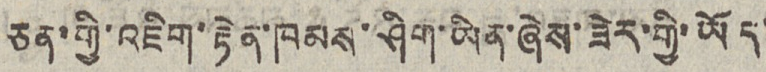ཅན་གྱི་འཇིག་རྟེན་ཁམས་ཤིག་ཡིན་ཞེས་ཟེར་གྱི་ཡོད་
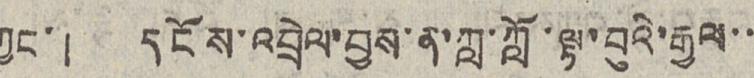ཀྱང་། དངོས་འབྲེལ་བྱས་ན་ཀླ་ཀློ་ལྟ་བུའི་རྒྱལ་་
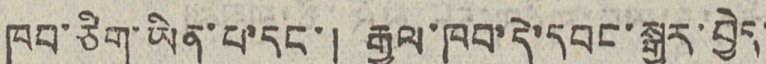ཁབ་ཅིག་ཡིན་པ་དང་། རྒྱལ་ཁབ་དེ་དབང་སྒྱུར་བྱེད་
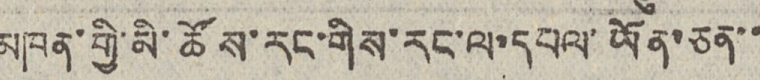མཁན་གྱི་མི་ཚོས་རང་གིས་རང་ལ་དཔལ་ཡོན་ཅན་་
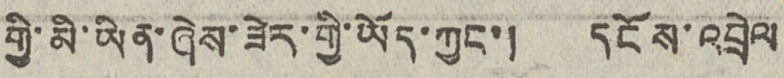གྱི་མི་ཡིན་ཞེས་ཟེར་གྱི་ཡོད་ཀྱང་། དངོས་འབྲེལ
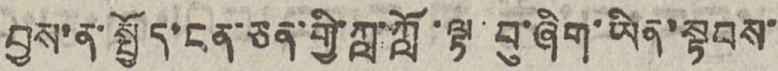བྱས་ན་སྤྱོད་ངན་ཅན་གྱི་ཀླ་ཀློ་ལྟ་བུ་ཞིག་ཡིན་སྟབས་
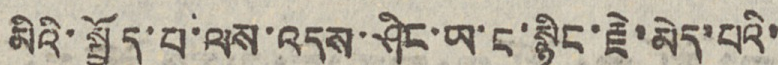མིའི་སྤྱོད་པ་ལས་འདས་ཤིང་ཡ་ང་སྙིང་རྗེ་མེད་པའི་
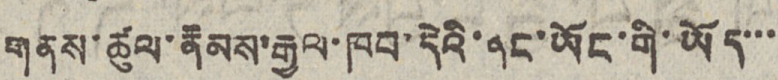གནས་ཚུལ་རྣམས་རྒྱལ་ཁབ་དེའི་ནང་ཡོང་གི་ཡོད་་་
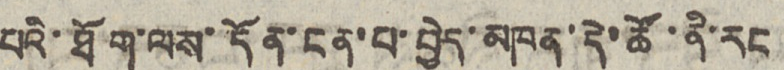པའི་ཐོག་ལས་དོན་ངན་པ་བྱེད་མཁན་དེ་ཚོ་ནི་རང
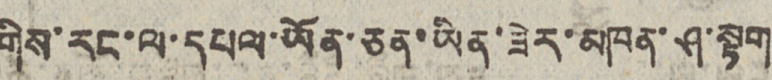གིས་རང་ལ་དཔལ་ཡོན་ཅན་ཡིན་ཟེར་མཁན་ཤ་སྟག
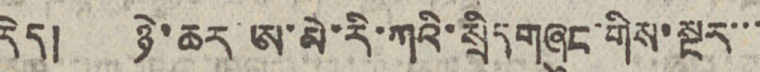རེད། ཉེ་ཆར ཨ་མེ་རི་ཀའི་སྲིད གཞུང་གིས་སྔར་་་
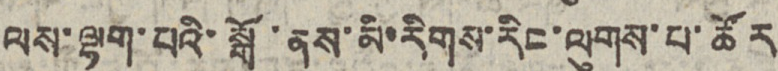ལས་ལྷག་པའི་སྒོ་ནས་མི་རིགས་རིང་ལུགས་པ་ཚོར
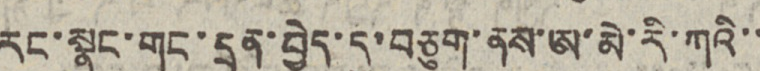རང་སྣང་གང་དྲན་བྱེད་དུ་བཅུག་ནས་ཨ་མེ་རི་ཀའི་་
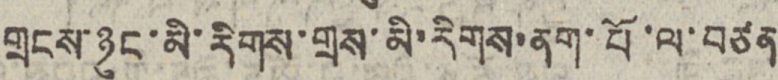གྲངས་ཉུང་མི་རིགས་གྲས་མི་རིགས་ནག་པོ་ལ་བཙན
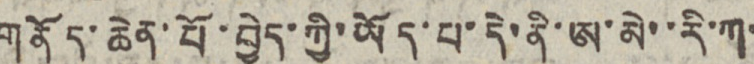གནོད་ཆེན་པོ་བྱེད་ཀྱི་ཡོད་པ་དེ་ནི་ཨ་མེ་རི་ཀ་
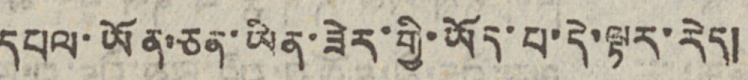དཔལ་ཡོན་ཅན་ཡིན་ཟེར་གྱི་ཡོད་པ་དེ་ལྟར་རེད།
